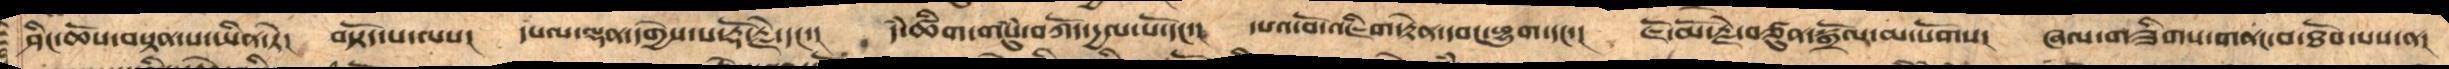ཤིང་ཆོས་བསྟན་པ་ཡིན་ཏེ།   བསྟོད་པ་ལས།  དཔལ་ལྡན་དགྱེས་པ་རྡོ་རྗེ་དང་།  དཾ་ཚིག་གསུཾ་བཀོད་དྱལ་པོ་དང་།  དཔའ་བོ་འཇིག་རྟེན་དབང་ཕྱུག་དང་།  ཇོ་མོ་རྗེ་བཙུན་སྒྲོལ་མ་སོགས།   ཞལ་གཟིགས་གནང་བ་ཐོབ་པས་ན།
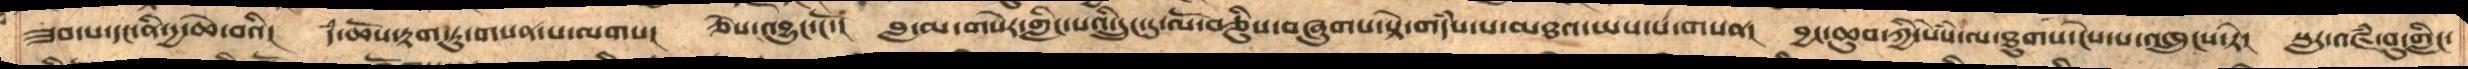ཟབ་པ་དང་ནི་དྱ་ཆེ་བའི།  དཾ་ཆོས་རྟག་ཏུ་གསན་པ་ལགས།   ཅེས་འབྱུང་ངོ་།   བླ་མ་གསེར་གླིང་པའི་དྲུང་དུ་ལོ་བཅིུས་བཞུགས་སྟེ་གདཾས་པ་མཐའ་ཡས་པ་གསན།   བྱང་ཆུབ་ཀྱི་སེཾས་ལ་ཐུགས་ངེས་པ་འཁྲུངས་ཏེ།  སླར་འཛཾ་བུ་གླིང་
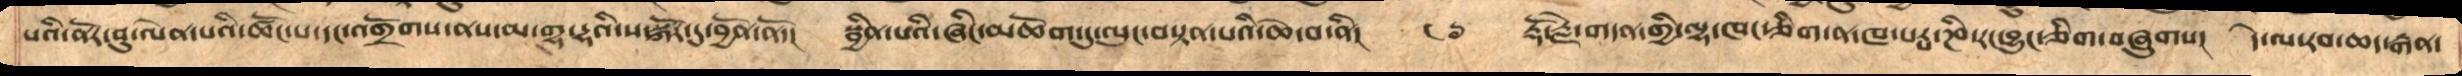པའི་ནོར་བུ་ལེན་པའི་ཚོང་པ་དང་འགྲོགས་ནས་མ་གྷ་དྷའི་ས་སྐོར་དུ་བྱོན་ནོ།    སྦྱིན་པའི་ཞིང་མཆོག་དུ་ལུང་བསྟན་པའི་ཆེ་བ་ནི།  ༤༦  རྡོ་རྗེ་གདན་གྱི་ལྷ་ཁང་ཅིག་ན་ཁ་སརྤ་ཎི་རང་བྱུང་ཅིག་བཞུགས།  དེ་ལ་རབ་ཆད་རྒན་
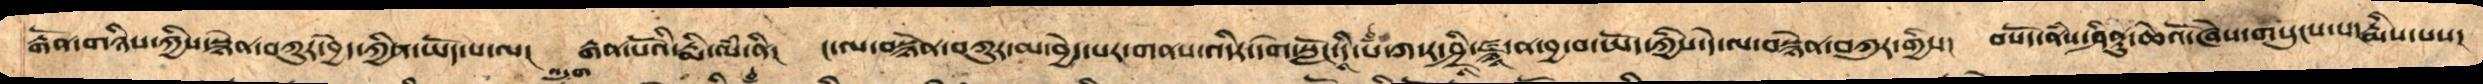རྒོན་གཉིས་ཀྱིས་སྙེན་བཀུར་བྱེད་ཀྱིན་ཡོད་པ་ལ།  རྒན་པོའི་རྨི་ལཾ་ན།  ང་ལ་བསྙེན་བཀུར་མ་བྱེད་པར་གནས་འདིར་དགེ་སློང་དཱི་པཾ་ཀ་ར་ཤྲཱཱི་ཛྙཱ་ན་བྱ་བ་ཡོད་ཀྱིས་དེ་ལ་བསྙེན་བཀུར་གྱིས།   བསོད་ནཾས་ཤིནྟུ་ཆེའོ་ཞེས་གསུངས་པ་རྨིས་པས།
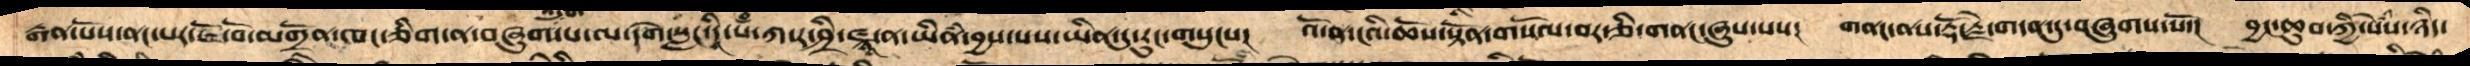རྒན་པོས་ནང་པར་ཇོ་བོ་འགྲོན་ཁང་ཅིག་ན་བཞུགས་འདུག་པ་ལ་དགེ་སློང་དཱི་པཾ་ཀ་ར་ཤྲི་ཛྙཱ་ན་ཡིནཾ་བྱས་པས་ཡིན་དུ་རུང་གསུངས།   འོ་ན་ངའི་ཆོས་སྟོན་གསོལ་བར་ཅི་གནང་ཞུས་པས།  གནང་ནས་རྡོ་རྗེ་གདན་དུ་བཞུགས་སོ།  བྱང་ཆུབ་ཀྱི་སེཾས་ཉིད་
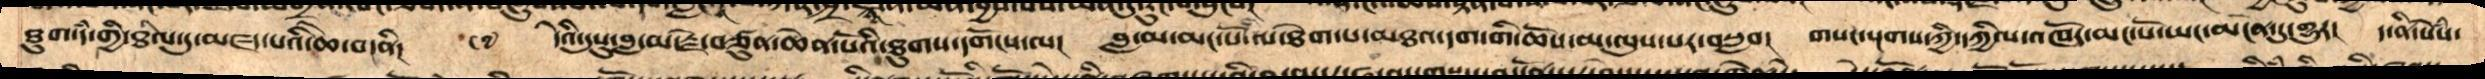ཐུགས་དཾ་གྱི་ཐིལ་དུ་མཛད་པའི་ཆེ་བ་ནི།  ༤༧  དེའི་དུསུ་བླ་མ་རྗེ་བཙུན་ཆེན་པོའི་ཐུགས་དགོངས་ལ།   བླ་མ་མང་པོ་ལ་ཐེག་པ་མཐའ་དག་གི་ཆོས་མ་ལུས་པར་བསླབ།   གསང་སྔགས་ཀྱི་དཀྱིལ་འཁོར་མང་པོ་ཡང་མངོན་དུ་གྱུར།  ད་ནི་སེཾས་
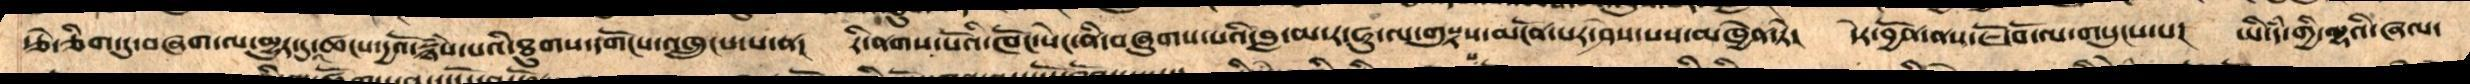རྩེ་ཅིག་དུ་བཞག་ལ་མྱུར་དུ་འཚངས་དྱའོ་སྙཾས་པའི་ཐུགས་དགོངས་འཁྲུངས་པ་ན།   རི་ནགས་པོའི་ཁོང་སེང་ནི་བཞུགས་པའི་བླ་མ་རཱ་ཧུ་ལ་གུཔྟས་མངོན་པར་ཤེས་པས་མཁྱེན་ཏེ།   དེར་བྱོན་ནས་ཇོ་བོ་ལ་གསུངས་པ།  ཡི་དཾ་གྱི་ལྷའི་ཞལ་
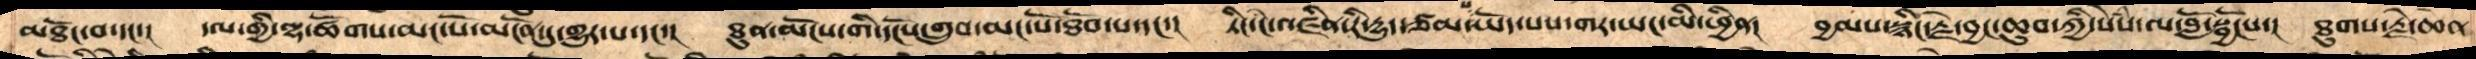མཐོང་བ་དང་། དལ་གྱི་ལྷ་ཚོགས་མང་པོ་མངོན་དུ་གྱུར་པ་དང་།    ཐུན་མོངས་གི་དངོས་གྲུབ་མང་པོ་ཐོབ་པ་དང།   ཏིང་ངེ་འཛིན་རི་དྱུད་ཙམ་ཡོད་པས་གར་ཡང་མི་ཕྱིན།   བྱམས་སྙིང་རྗེ་བྱང་ཆུབ་ཀྱི་སེཾས་ལ་བློ་སྦྱོངས།  ཐུགས་རྗེ་ཆེན་
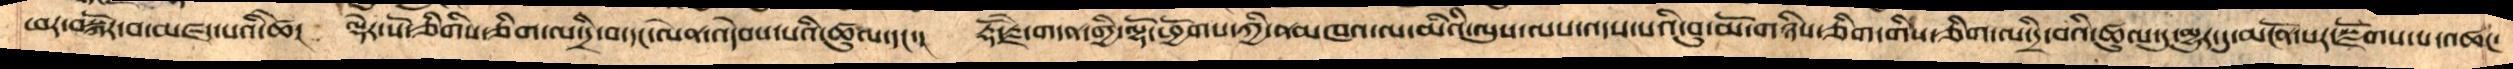ཕར་བསྐོར་བ་མཛད་པའི་ཚེ།    ལྡེར་སོ་ཅིགིས་ཅིག་ལ་དྲི་བ་དང་ལན་འདེབས་པའི་ཚུལ་དང་།   རྡོ་རྗེ་གདན་གྱི་ལྷོ་ཕྱོགས་ཀྱི་ནམཁའ་ལ་མིའི་ལུས་ལས་འདས་པའི་བུ་མོ་གཉིས་ཅིག་གིས་ཅིག་ལ་དྲི་བའི་ཚུལ་དུ་མྱུར་དུ་མངོན་པར་སྫོགས་པ་འཚང་
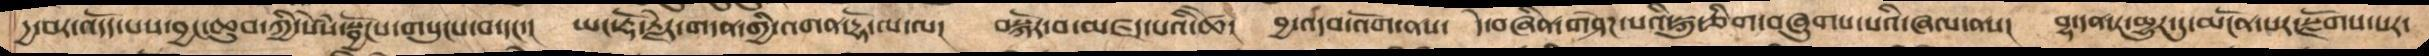དྱ་བར་འདོད་པས་བྱང་ཆུབ་ཀྱི་སེཾས་སྦྱོངས་གསུངས་བ་དང་།   ཡང་རྡོ་རྗེར་གདན་གྱི་འགན་དྷོ་ལ་ལ།  བསྐོར་བ་མཛད་པའི་ཚེ།  བྱ་འདབ་འོག་ནས་   དེ་བཞིན་གཤེཌ་པའི་སྐུ་ཅིག་བཞུགས་པའི་ཞལ་ནས།  བྷ་དན་ར་མྱུར་དུ་མངོན་པར་སྫོགས་པར་
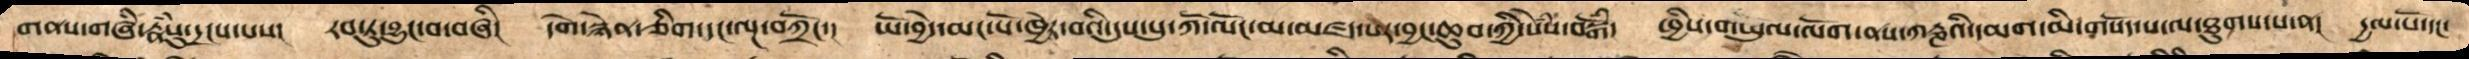གནས་གཞི་རྣཾས་སུ་དྲངས་པས།    རབ་ཏུ་བྱུང་བ་བཞི།    དགེ་སྙེན་ཅིག་དང་ལྔ་བཀྲོང་།    ཡོ་བྱེད་མང་པོ་ཁྱེར་བའི་དུས་སུ་ཀོ་ལོང་མ་མཛད་པར་བྱང་ཆུབ་ཀྱི་སེཾས་བསྒོཾས།    ཕྱིས་གཡུལ་ལོག་ནས་ཀརྞའི་དམག་མི་གསོད་པ་ལ་ཐུགས་པ་ན།   དྱལ་པོ་དང་
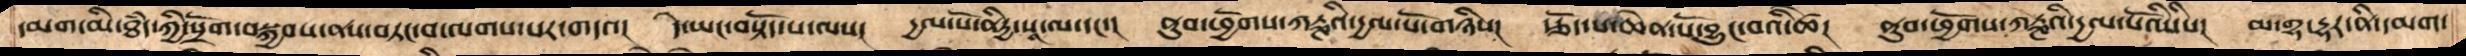དམག་མི་ཐཾད་ཀྱི་སྲོག་བསྐྱབས་ནས་བཏང་བ་ལགས་པར་གདའ།    དེ་ཡང་བསྟོད་པ་ལས།    དྱལ་པོ་ནིཏྱ་པཱ་ལ་དང་།    ནུབ་ཕྱོགས་ཀརྞའི་དྱལ་པོ་གཉིས།    རྩོད་པ་ཆེན་པོ་བྱུང་བའི་ཚེ།    ནུབ་ཕྱོགས་ཀརྞའི་དྱལ་པོའིཔསི།   མ་ག་དྷར་ནི་དམག་
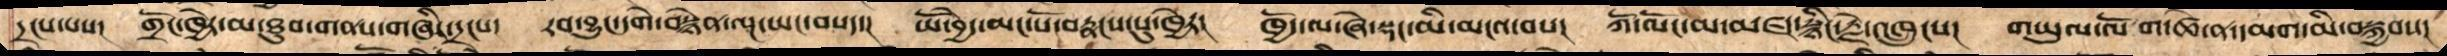དྲངས་པས།    གྲོང་ཁྱེར་མ་ཐུབ་གནས་གཞིར་དྲངས།   རབ་བྱུང་དགེ་བསྙེན་ལྔ་ཡང་བསད་།    ཡོ་བྱད་མང་པོ་བརྣངས་སུ་ཁྱེར།   ཁྱོད་ལ་ཞེ་སྡང་མི་མངའ་བས།   ཀོ་ལོང་མ་མཛད་སྙིང་རྗེ་འཁྲུངས།   གཡུལ་ལོག་ཚེ་ན་དམག་མི་བསྐྱབས།
